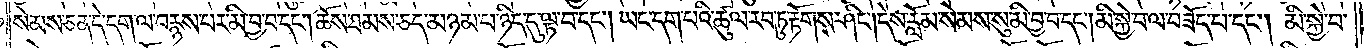སེམས་ཅན་དེ་དག་ལ་བརྙས་པར་མི་བྱ་བ་དང༌། ཆོས་ཐམས་ཅད་མཉམ་པ་ཉིད་དུ་ལྟ་བ་དང༌། ཡང་དག་པའི་ཚུལ་རབ་ཏུ་རྟོགས་ཤིང༌། དེས་རློམ་སེམས་སུ་མི་བྱ་བ་དང༌། མི་སྐྱེ་བ་ལ་བཟོད་པ་དང༌། མི་སྐྱེ་བ་
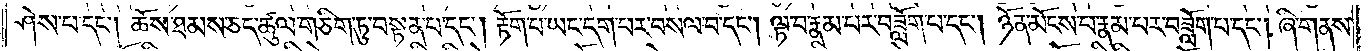ཤེས་པ་དང༌། ཆོས་ཐམས་ཅད་ཚུལ་གཅིག་ཏུ་བསྟན་པ་དང༌། རྟོག་པ་ཡང་དག་པར་བསལ་བ་དང༌། ལྟ་བ་རྣམ་པར་བཟློག་པ་དང༌། ཉོན་མོངས་པ་རྣམ་པར་བཟློག་པ་དང༌། ཞི་གནས་
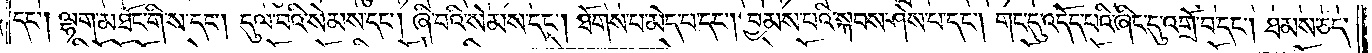དང༌། ལྷག་མཐོང་གིས་དང༌། དུལ་བའི་སེམས་དང༌། ཞི་བའི་སེམས་དང༌། ཐོགས་པ་མེད་པ་དང༌། བྱམས་པའི་སྐབས་ཤེས་པ་དང༌། གང་དུ་འདོད་པའི་ཞིང་དུ་འགྲོ་བ་དང༌། ཐམས་ཅད་
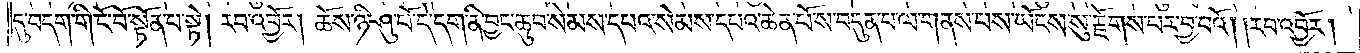དུ་བདག་གི་ངོ་བོ་སྟོན་པ་སྟེ། རབ་འབྱོར། ཆོས་ཉི་ཤུ་པོ་དེ་དག་ནི་བྱང་ཆུབ་སེམས་དཔའ་སེམས་དཔའ་ཆེན་པོ་ས་བདུན་པ་ལ་གནས་པས་ཡོངས་སུ་རྫོགས་པར་བྱ་བའོ། །རབ་འབྱོར། །
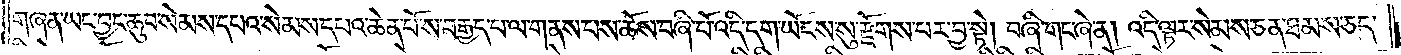གཞན་ཡང་བྱང་ཆུབ་སེམས་དཔའ་སེམས་དཔའ་ཆེན་པོ་ས་བརྒྱད་པ་ལ་གནས་པས་ཆོས་བཞི་པོ་འདི་དག་ཡོངས་སུ་རྫོགས་པར་བྱ་སྟེ། བཞི་གང་ཞེ་ན། འདི་ལྟར་སེམས་ཅན་ཐམས་ཅད་
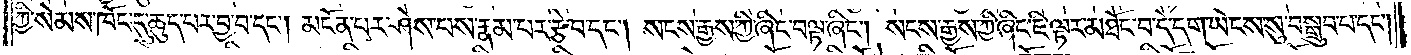ཀྱི་སེམས་ཁོང་དུ་ཆུད་པར་བྱ་བ་དང༌། མངོན་པར་ཤེས་པས་རྣམ་པར་བརྩེ་བ་དང༌། སངས་རྒྱས་ཀྱི་ཞིང་བལྟ་ཞིང༌། སངས་རྒྱས་ཀྱི་ཞིང་ཇི་ལྟར་མཐོང་བ་དེ་དག་ཡོངས་སུ་བསྒྲུབ་པ་དང༌།
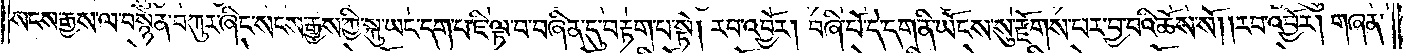སངས་རྒྱས་ལ་བསྙེན་བཀུར་ཞིང་སངས་རྒྱས་ཀྱི་སྐུ་ཡང་དག་པ་ཇི་ལྟ་བ་བཞིན་དུ་བརྟག་པ་སྟེ། རབ་འབྱོར། བཞི་པོ་དེ་དག་ནི་ཡོངས་སུ་རྫོགས་པར་བྱ་བའི་ཆོས་སོ། །རབ་འབྱོར། གཞན་
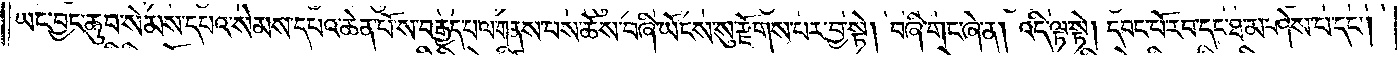ཡང་བྱང་ཆུབ་སེམས་དཔའ་སེམས་དཔའ་ཆེན་པོ་ས་བརྒྱད་པ་ལ་གནས་པས་ཆོས་བཞི་ཡོངས་སུ་རྫོགས་པར་བྱ་སྟེ། བཞི་གང་ཞེ་ན། འདི་ལྟ་སྟེ། དབང་པོ་རབ་དང་ཐ་མ་ཤེས་པ་དང༌།
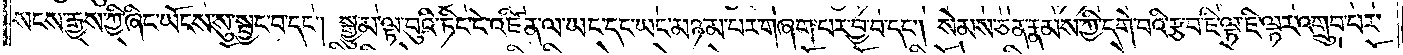སངས་རྒྱས་ཀྱི་ཞིང་ཡོངས་སུ་སྦྱང་པ་དང༌། སྒྱུ་མ་ལྟ་བུའི་ཏིང་ངེ་འཛིན་ལ་ཡང་དང་ཡང་མཉམ་པར་བཞག་པར་བྱ་བ་དང༌། སེམས་ཅན་རྣམས་ཀྱི་དགེ་བའི་རྩ་བ་ཇི་ལྟ་ཇི་ལྟར་འགྲུབ་པར་
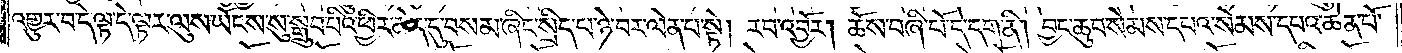འགྱུར་བ་དེ་ལྟ་དེ་ལྟར་ལུས་ཡོངས་སུ་སྒྲུབ་པའི་ཕྱིར་ཆེད་དུ་བསམས་ཤིང་སྲིད་པ་ཉེ་བར་ལེན་པ་སྟེ། རབ་འབྱོར། ཆོས་བཞི་པོ་དེ་དག་ནི། བྱང་ཆུབ་སེམས་དཔའ་སེམས་དཔའ་ཆེན་པོ་
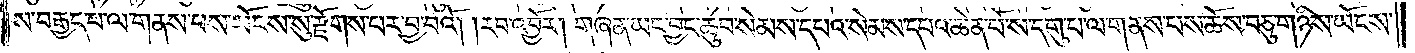ས་བརྒྱད་པ་ལ་གནས་པས་ཡོངས་སུ་རྫོགས་པར་བྱ་བའོ། །རབ་འབྱོར། གཞན་ཡང་བྱང་ཆུབ་སེམས་དཔའ་སེམས་དཔའ་ཆེན་པོ་ས་དགུ་པ་ལ་གནས་པས་ཆོས་བཅུ་གཉིས་ཡོངས་
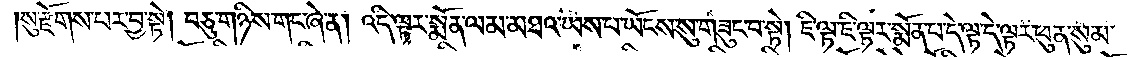སུ་རྫོགས་པར་བྱ་སྟེ། བཅུ་གཉིས་གང་ཞེ་ན། འདི་ལྟར་སྨོན་ལམ་མཐའ་ཡས་པ་ཡོངས་སུ་གཟུང་བ་སྟེ། ཇི་ལྟ་ཇི་ལྟར་སྨོན་པ་དེ་ལྟ་དེ་ལྟར་ཕུན་སུམ་
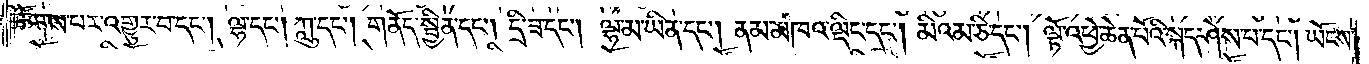ཚོགས་པར་འགྱུར་བ་དང༌། ལྷ་དང༌། ཀླུ་དང༌། གནོད་སྦྱིན་དང༌། དྲི་ཟ་དང༌། ལྷ་མ་ཡིན་དང༌། ནམ་མཁའ་ལྡིང་དང༌། མི་འམ་ཅི་དང༌། ལྟོ་འཕྱེ་ཆེན་པོའི་སྐད་ཤེས་པ་དང༌། ཡོངས་
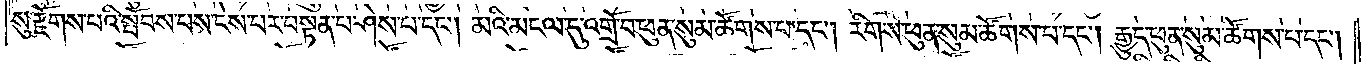སུ་རྫོགས་པའི་སྤོབས་པས་ངེས་པར་བསྟན་པ་ཤེས་པ་དང༌། མའི་མངལ་དུ་འགྲོ་བ་ཕུན་སུམ་ཚོགས་པ་དང༌། རིགས་ཕུན་སུམ་ཚོགས་པ་དང༌། རྒྱུད་ཕུན་སུམ་ཚོགས་པ་དང༌།
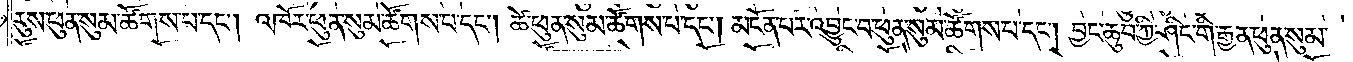རུས་ཕུན་སུམ་ཚོགས་པ་དང༌། འཁོར་ཕུན་སུམ་ཚོགས་པ་དང༌། ཚེ་ཕུན་སུམ་ཚོགས་པ་དང༌། མངོན་པར་འབྱུང་བ་ཕུན་སུམ་ཚོགས་པ་དང༌། བྱང་ཆུབ་ཀྱི་ཤིང་གི་རྒྱན་ཕུན་སུམ་
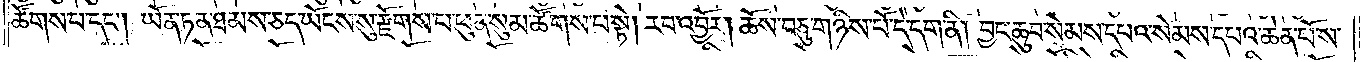ཚོགས་པ་དང༌། ཡོན་ཏན་ཐམས་ཅད་ཡོངས་སུ་རྫོགས་པ་ཕུན་སུམ་ཚོགས་པ་སྟེ། རབ་འབྱོར། ཚེས་བཅུ་གཉིས་པོ་དེ་དག་ནི། བྱང་ཆུབ་སེམས་དཔའ་སེམས་དཔའ་ཆེན་པོ་ས་
